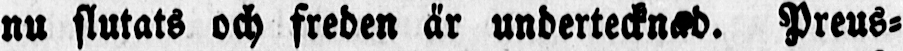nu slutats och freden är undertecknab. Preus-
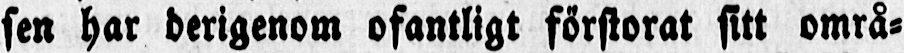sen har derigenom ofantligt förstorat sitt områ-
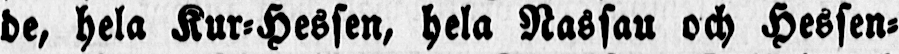de, hela Kur-Hessen, hela Nassau och Hessen-
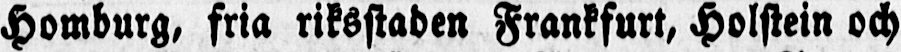Homburg, fria riksstaden Frankfurt, Holstein och
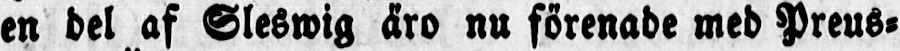en del af Sleswig äro nu förenade med Preus-
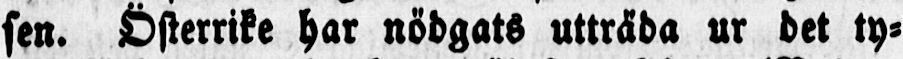sen. Österrike har nödgats utträda ur det ty-
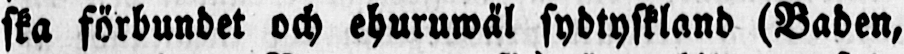ska förbundet och ehuruwäl sydtyskland (Baden,
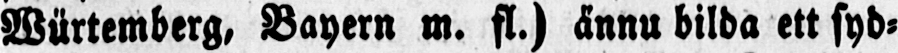Würtemberg, Bayern m. fl.) ännu bilda ett syd-
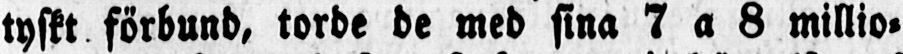tyskt förbund, torde de med sina 7 a 8 millio-
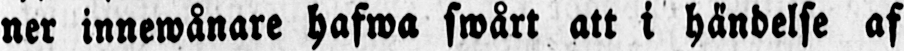ner innewånare hafwa swårt att i händelse af
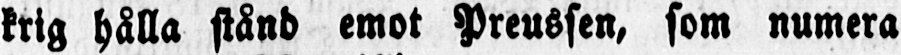krig hålla stånd emot Preussen, som numera
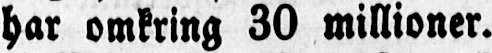har omkring 30 millioner.
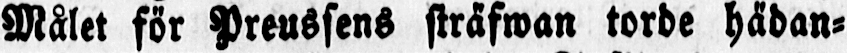Målet för Preussens sträfwan torde hädan-
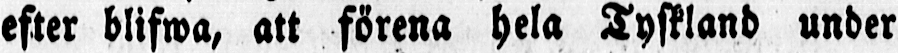efter blifwa, att förena hela Tyskland under
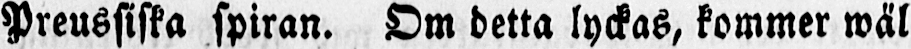Preussiska spiran. Om detta lyckas, kommer wäl
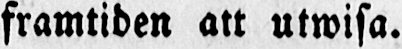framtiden att utwisa.
